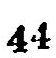44
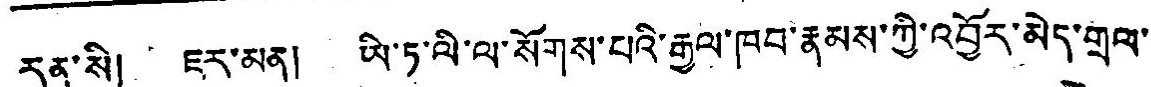རན་སི། ཇར་མན། ཡི་ཏ་ལི་ལ་སོགས་པའི་རྒྱལ་ཁབ་རྣམས་ཀྱི་འབྱོར་མེད་གྲལ་
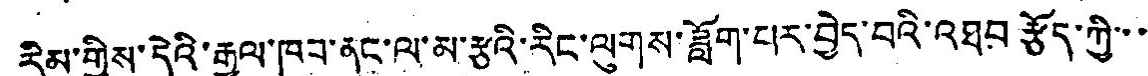རིམ་གྱིས་དེའི་རྒྱལ་ཁབ་ནང་ལ་མ་རྩའི་རིང་ལུགས་ཟློག་པར་བྱེད་བའི་འཐབ་རྩོད་ཀྱི་་
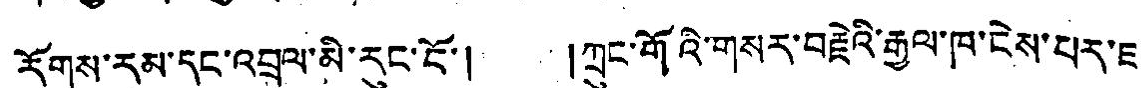རོགས་རམ་དང་འབྲལ་མི་རུང་ངོ་། །ཀྲུང་གོའི་གསར་བརྗེའི་རྒྱལ་ཁ་ངེས་པར་ཇ་
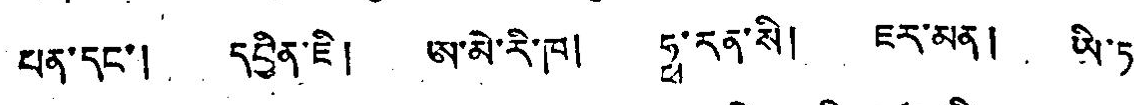པན་དང་། དབྱིན་ཇི། ཨ་མེ་རི་ཁ། ཧྥ་རན་སི། ཇར་མན། ཡི་ཏ་
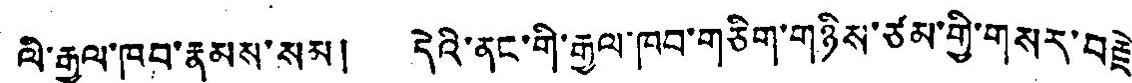ལི་རྒྱལ་ཁབ་རྣམས་སམ། དེའི་ནང་གི་རྒྱལ་ཁབ་གཅིག་གཉིས་ཙམ་གྱི་གསར་བརྗེ་
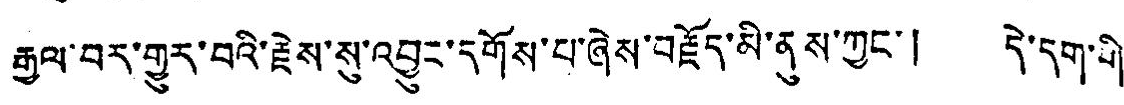རྒྱལ་བར་གྱུར་བའི་རྗེས་སུ་འབྱུང་དགོས་པ་ཞེས་བརྗོད་མི་ནུས་ཀྱང་། དེ་དག་གི་
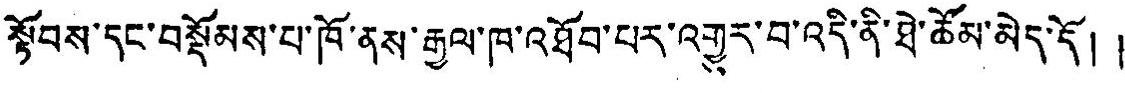སྟོབས་དང་བསྡོམས་པ་ཁོ་ནས་རྒྱལ་ཁ་འཐོབ་པར་འགྱུར་བ་འདི་ནི་ཐེ་ཚོམ་མེད་དོ། །
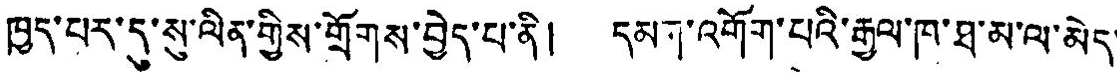ཁྱད་པར་དུ་སུ་ལིན་གྱིས་གྲོགས་བྱེད་པ་ནི། དམག་འགོག་པའི་རྒྱལ་ཁ་ཐ་མ་ལ་མེད་
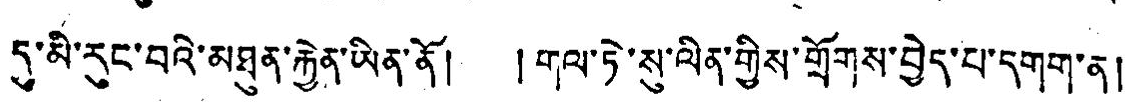དུ་མི་རུང་བའི་མཐུན་རྐྱེན་ཡིན་ནོ། ། གལ་ཏེ་སུ་ལིན་གྱིས་གྲོགས་བྱེད་པ་དགག་ན།
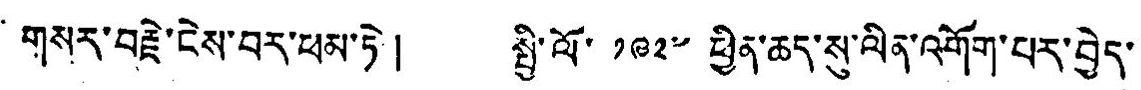གསར་བརྗེ་ངེས་བར་ཕམ་ཏེ ། སྤྱི་ལོ་ ༡༩༢༧ ཕྱིན་ཆད་སུ་ལིན་འགོག་པར་བྱེད་
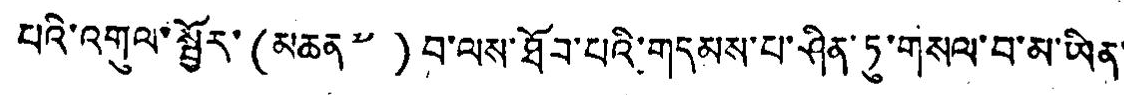པའི་འགུལ་སྦྱོར་(མཆན ༧ )བ་ལས་ཐོབ་པའི་གདམས་པ་ཤིན་ཏུ་གསལ་བ་མ་ཡིན་
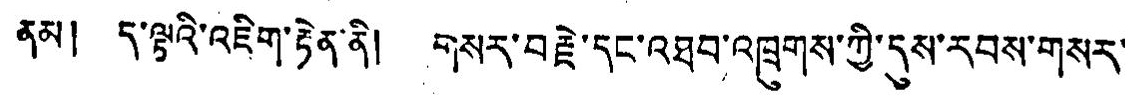ནམ། ད་ལྟའི་འཇིག་རྟེན་ནི། གསར་བརྗེ་དང་འཐབ་འཁྲུགས་ཀྱི་དུས་རབས་གསར་
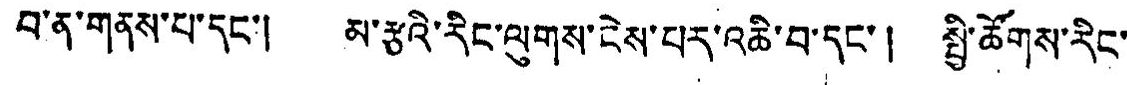པ་ན་གནས་པ་དང་། མ་རྩའི་རིང་ལུགས་ངེས་པར་འཆི་བ་དང་། སྤྱི་ཚོགས་རིང་
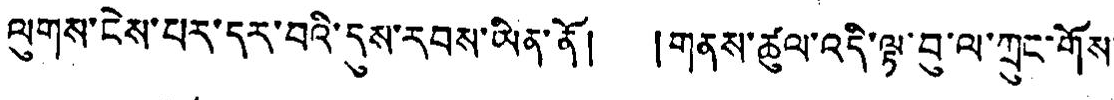ལུགས་ངེས་པར་དར་བའི་དུས་རབས་ཡིན་ནོ། །གནས་ཚུལ་འདི་ལྟ་བུ་ལ་ཀྲུང་གོས་
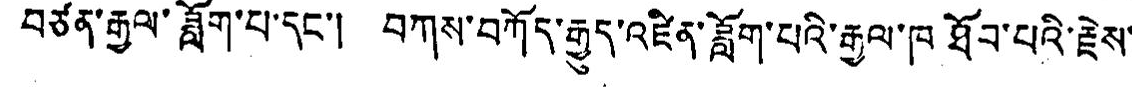བཙན་རྒྱལ་ཟློག་པ་དང་། བཀས་བཀོད་རྒྱུད་འཛིན་ཟློག་པའི་རྒྱལ་ཁ་ཐོབ་པའི་རྗེས་
